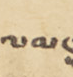ལམ་
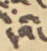དེའི་
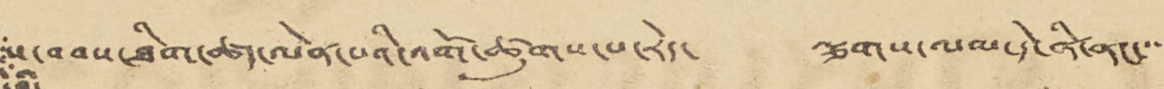ས་བབས་ཐིག་ཚད་ལེན་པའི་པའི་འགོ་ཚུགས་པ་རེད་ ལྕགས་ལམ་དེ་ནི་ནང་་་་
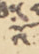འོ
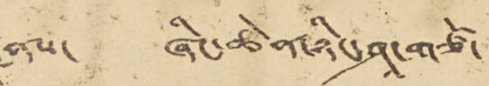ནས་ ཞིང་ཆེན་ཉིང་ཤཱག་གཙོ་
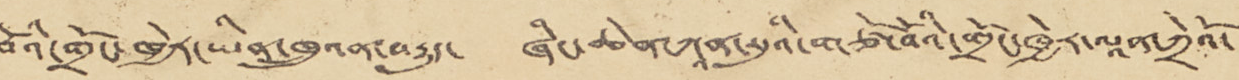བོའི་གྲོང་ཁྱེར་ཡིན་ཁྲུའན་བརྒྱུད་ ཞིང་ཆེན་ཀཱན་སུའི་གཙོ་བོའི་གྲོང་ཁྱེར་ལཱན་ཀྲེའོ་
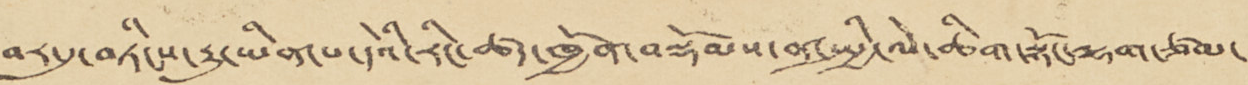བར་དུ་བཏིངས་རྒྱུ་ཡིན་པ་དེའི་རིང་ཚད་ཁྱོན་བསྡོམས་ན་སྤྱི་ལེ་ཆིག་སྟོང་ལྷག་ཙམ་
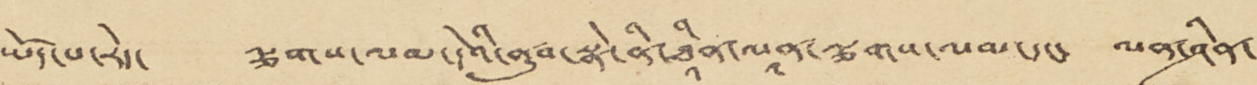ཡོད་པ་རེད་ ལྕགས་ལམ་དེའི་ནུབ་སྣེ་ཐཱིན་ལཱན་ལྕགས་ལམ་དང་ ལན་ཤིན་
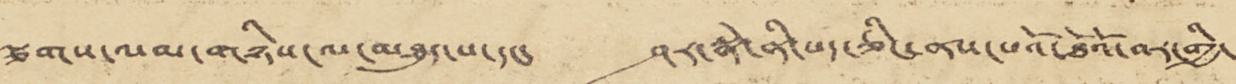ལྕགས་ལམ་གཉིས་ལ་མཐུད་པ་དང་ ཤར་སྣེ་ནི་པད་ཅིང་ནས་པའོ་ཐོའོ་བར་གྱི་
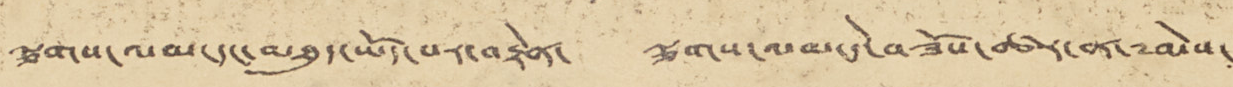ལྕགས་ལམ་དང་མཐུད་ཡོད་པར་བརྟེན་ ལྕགས་ལམ་དེ་བཟོས་ཚར་ན་༸མེས་
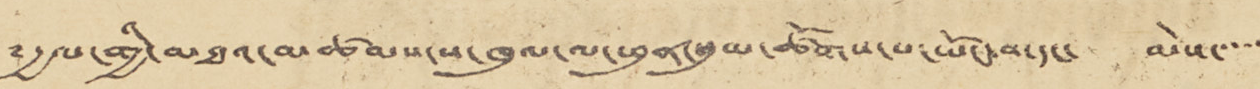༸རྒྱལ་གྱི་མཐའ་མཚམས་ས་ཁུལ་ལ་ཕུན་སུམ་ཚོགས་པ་ཡོང་བ་དང་ མེས་་་་་
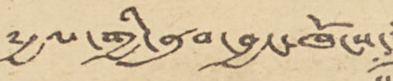༸རྒྱལ་གྱི་ནུབ་བྱང་ཁོངས་
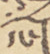དང་།
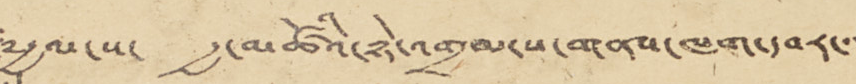༸རྒྱལ་ས་ རྒྱ་མཚོའི་ཉེ་འགྲམ་ས་གནས་ཁག་དབར་་་
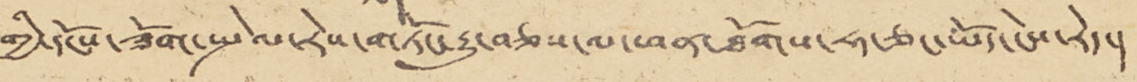གྱི་དངོས་ཟོག་སྤེལ་རེས་གཏོང་རྒྱུ་བཅས་ལ་ཕན་ཐོགས་ཧ་ཅང་ཡོད་ངེས་རེད་།
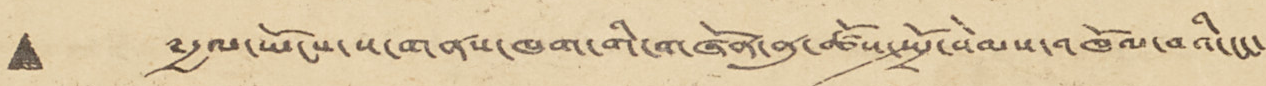• ༸རྒྱལ་ཡོངས་ས་གནས་ཁག་གི་གཞོན་ནུ་ཚོས་སྤྲོ་སེམས་འཁོལ་བའི་ངང་
